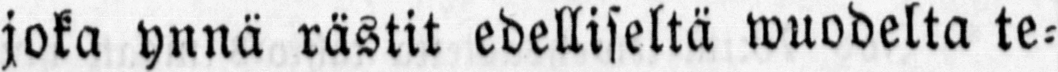joka ynnä rästit edelliseltä wuodelta te-
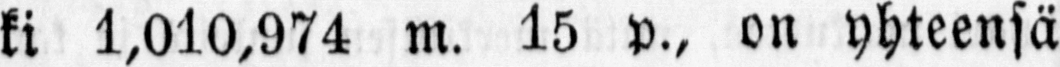ki 1,010,974 m. 15 p., on yhteensä
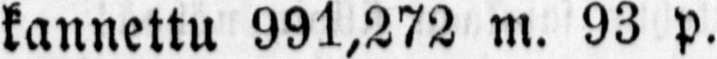kannettu 991,272 m. 93 p.
